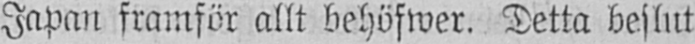Japan framför allt behöfwer. Detta beslut
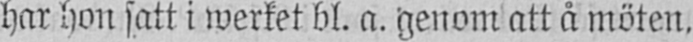har hon satt i werket bl. a. genom att å möten,
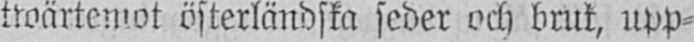twärtemot österländska seder och bruk, upp-
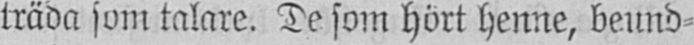träda som talare. De som hört henne, beund-
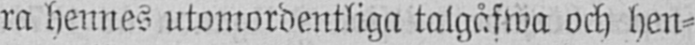ra hennes utomordentliga talgåfwa och hen-
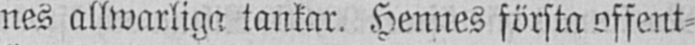nes allwarliga tankar. Hennes första offent-
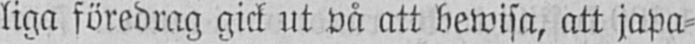liga föredrag gick ut på att bewisa, att japa-
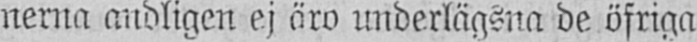nerna andligen ej äro underlägsna de öfriga
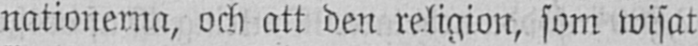nationerna, och att den religion, som wisat
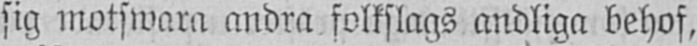sig motswara andra folkslags andliga behof,
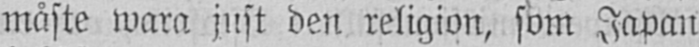måste wara just den religion, som Japan
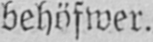behöfwer.
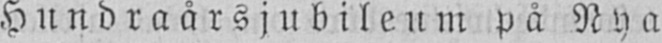Hundraårsjubileum på Nya
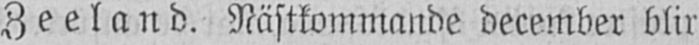Zeeland. Nästkommande december blir
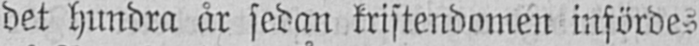det hundra år sedan kristendomen infördes
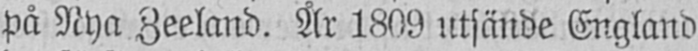på Nya Zeeland. År 1800 utsände England
